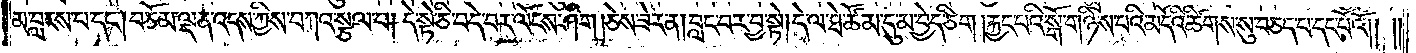མ་བླངས་པ་དང༌། བཅོམ་ལྡན་འདས་ཀྱིས་བཀའ་སྩལ་པ། དེ་སྟེ་ཅི་བདེ་བར་ལོངས་ཤིག །ཅེས་ཟེར་ན། བླང་བར་བྱ་སྟེ། དེ་ལ་ཐེ་ཚོམ་དུ་མ་བྱེད་ཅིག །རྐྱང་པའི་སྒོ་གཉིས་པའི་མདོའི་ཚིགས་སུ་བཅད་པ་དང་པོའོ༎
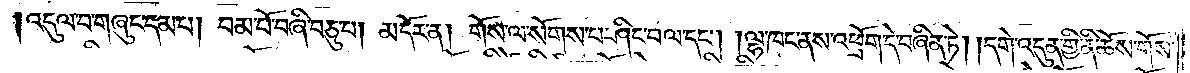འདུལ་བ་གཞུང་དམ་པ། བམ་པོ་བཞི་བཅུ་པ། མདོར་ན། གོས་ལ་སོགས་པ་ཤིང་བལ་དང༌། །ལྷ་ཁང་ནས་འཕྲོག་དེ་བཞིན་ཏེ། །དགེ་འདུན་གྱི་ནི་ཆོས་གོས་
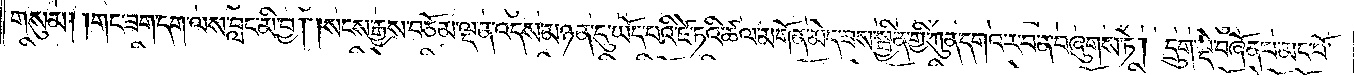གསུམ། །གང་ཟག་དག་ལས་བླང་མི་བྱ། །སངས་རྒྱས་བཅོམ་ལྡན་འདས་མཉན་དུ་ཡོད་པའི་ཛེ་ཏའི་ཚལ་མགོན་མེད་ཟས་སྦྱིན་གྱི་ཀུན་དགའ་ར་བ་ན་བཞུགས་ཏེ། དྲུག་སྡེ་བཞོན་པ་མང་པོ་
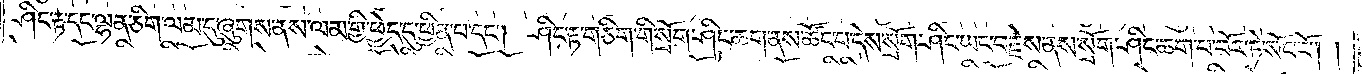ཤིང་རྟ་དང་ལྷན་ཅིག་ལམ་དུ་ཞུགས་ནས་ལམ་གྱི་ཕྱེད་དུ་ཕྱིན་པ་དང༌། ཤིང་རྟ་གཅིག་གི་སྲོག་ཤིང་ཆག་ནས་ཚོང་པ་དེས་སྲོག་ཤིང་ཡང་བརྗེས་ནས་སྲོག་ཤིང་ཆག་པ་བོར་ཏེ་སོང་ངོ༌། །
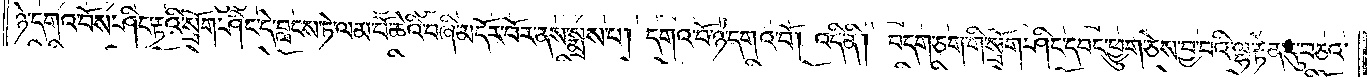ཉེ་དགའ་བོས་ཤིང་རྟའི་སྲོག་ཤིང་དེ་བླངས་ཏེ་ལམ་པོ་ཆེའི་བཞི་མདོར་བོར་ནས་སྨྲས་པ། དགའ་བོ་ཉེ་དགའ་བོ། འདི་ནི། བདག་ཅག་གི་སྲོག་ཤིང་དབང་ཕྱུག་ཅེས་བྱ་བའི་ལྷ་རྟེན་དུ་བཅའ་
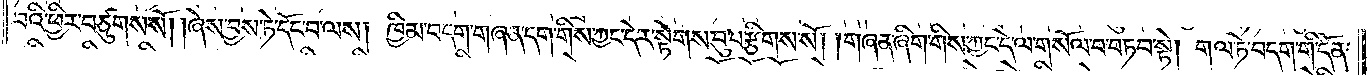བའི་ཕྱིར་བཙུགས་སོ། །ཞེས་བྱས་ཏེ་དོང་བ་ལས། ཁྱིམ་བདག་གཞན་དག་གིས་ཀྱང་དེར་སྟེགས་བུ་བརྩིགས་སོ། །གཞན་ཞིག་གིས་ཀྱང་དེ་ལ་གསོལ་བ་བཏབ་སྟེ། གལ་ཏེ་བདག་གི་དོན་
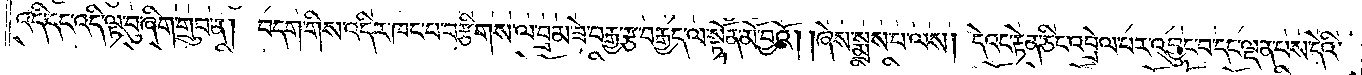འདི་དང་འདི་ལྟ་བུ་ཞིག་གྲུབ་ན། བདག་གིས་འདིར་ཁང་པ་བརྩིགས་ལ་བྲམ་ཟེ་བརྒྱ་རྩ་བརྒྱད་ལ་སྟོན་མོ་བྱའོ། །ཞེས་སྨྲས་པ་ལས། དེའང་རྟེན་ཅིང་འབྲེལ་པར་འབྱུང་བ་དང་ལྡན་པས་དེའི་
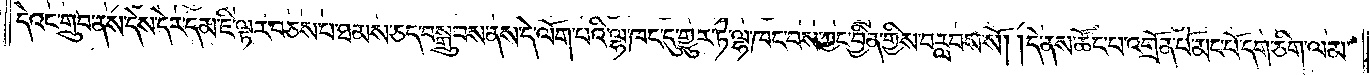དེའང་གྲུབ་ནས་དེས་དེར་དམ་ཇི་ལྟར་བཅས་པ་ཐམས་ཅད་བསྒྲུབས་ནས་དེ་ལོག་པའི་ལྷ་ཁང་དུ་གྱུར་ཏེ་ལྷ་ཁང་བས་ཀྱང་བྱིན་གྱིས་བརླབས་སོ། །དེ་ནས་ཚོང་པ་འགྲོན་པོ་མང་པོ་དག་ཅིག་ལམ་
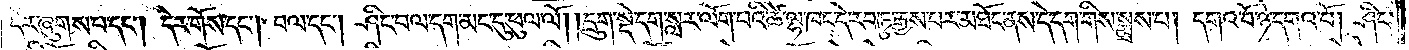དེར་ཞུགས་པ་དང༌། དེར་གོས་དང༌། བལ་དང༌། ཤིང་བལ་དག་མང་དུ་ཕུལ་ལོ། །དྲུག་སྡེ་དག་སླར་ལོག་པའི་ཚེ་ལྷ་ཁང་དེ་རབ་ཏུ་རྒྱས་པར་མཐོང་ནས་དེ་དག་གིས་སྨྲས་པ། དགའ་བོ་ཉེ་དགའ་བོ། ཤིང་
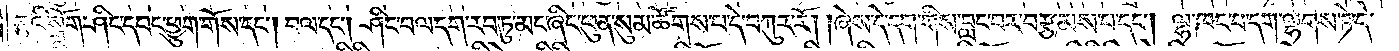རྟའི་སྲོག་ཤིང་དབང་ཕྱུག་གོས་དང༌། བལ་དང༌། ཤིང་བལ་དག་རབ་ཏུ་མང་ཞིང་ཕུན་སུམ་ཚོགས་པ་དེ་བཀུར་རོ། །ཞེས་དེ་དག་གིས་བླང་བར་བརྩམས་པ་དང༌། ལྷ་ཁང་པ་དག་ལྷགས་ཏེ་དེ་
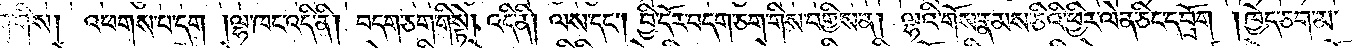དག་གིས། འཕགས་པ་དག །ལྷ་ཁང་འདི་ནི། བདག་ཅག་གི་སྟེ། འདི་ནི། ལས་དང༌། བྱི་དོར་བདག་ཅག་གིས་བགྱིས་ན། ལྷའི་གོས་རྣམས་ཅིའི་ཕྱིར་ལེན་ཅིང་དབྲོག །ཁྱེད་ཅག་མ་
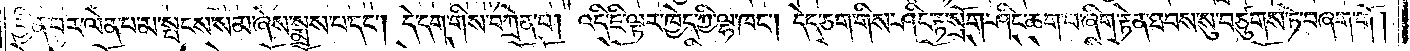བྱིན་པར་ལེན་པ་མ་སྤངས་སམ་ཞེས་སྨྲས་པ་དང༌། དེ་དག་གིས་བཀྲེན་པ། འདི་ཇི་ལྟར་ཁྱེད་ཀྱི་ལྷ་ཁང༌། དེད་ཅག་གིས་ཤིང་རྟ་སྲོག་ཤིང་ཆག་པ་ཞིག་རྟེན་ཐབས་སུ་བཙུགས་ཏེ་བཞག་གོ །
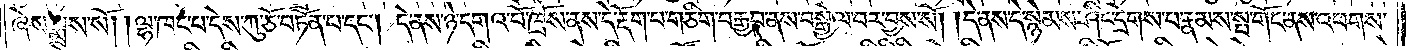ཞེས་སྨྲས་སོ། །ལྷ་ཁང་པ་དེས་ཀུ་ཅོ་བཏོན་པ་དང༌། དེ་ནས་ཉེ་དགའ་བོ་ཁྲོས་ནས་དེ་རྡོག་པ་གཅིག་བརྒྱབ་ནས་བསྒྱེལ་བར་བྱས་སོ། །དེ་ནས་དེ་སྙེམས་ཤིང་དྲེགས་པ་རྣམས་སྤ་གོང་ནས་འཕགས་
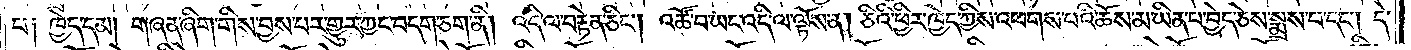པ༑ ཁྱེད་དམ། གཞན་ཞིག་གིས་བྱས་པར་གྱུར་ཀྱང་བདག་ཅག་ནི། འདི་ལ་བརྟེན་ཅིང༌། འཚོ་བ་ཡང་འདི་ལ་ལྟོས་ན། ཅིའི་ཕྱིར་ཁྱེད་ཀྱིས་འཕགས་པའི་ཆོས་མ་ཡིན་པ་བྱེད་ཅེས་སྨྲས་པ་དང༌། དེ་
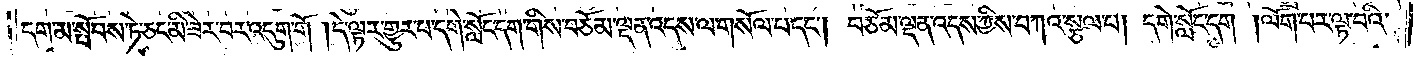དག་མ་སྤོབས་ཏེ་ཅང་མི་ཟེར་བར་འདུག་གོ །དེ་ལྟར་གྱུར་པ་དགེ་སློང་དག་གིས་བཅོམ་ལྡན་འདས་ལ་གསོལ་པ་དང༌། བཅོམ་ལྡན་འདས་ཀྱིས་བཀའ་སྩལ་པ། དགེ་སློང་དག །ལོག་པར་ལྟ་བའི་
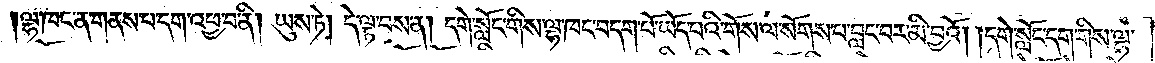ལྷ་ཁང་ན་གནས་པ་དག་འཕྱ་བ་ནི། ཡུས་ཏེ། དེ་ལྟ་བས་ན། དགེ་སློང་གིས་ལྷ་ཁང་བདག་པོ་ཡོད་པའི་གོས་ལ་སོགས་པ་བླང་བར་མི་བྱའོ། །དགེ་སློང་དག་གིས་ལྷ་
